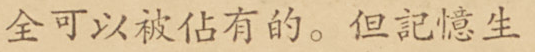全可以被佔有的。但記憶生
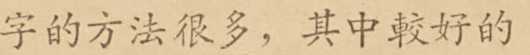字的方法很多，期中較好的
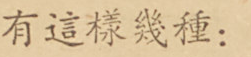有這樣幾種：
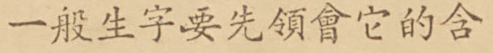一般生字要先領會它的含
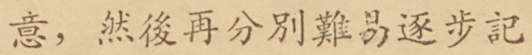意，然後再分別難易逐步記
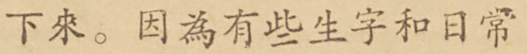下來。因為有些生字和日常
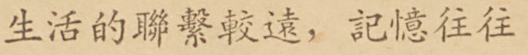生活得聯繫較遠，記憶往往
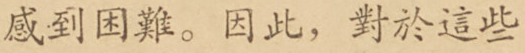感到困難。因此，對於這些
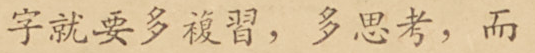字就要多複習，多思考，而
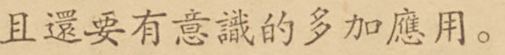且還要有意識的多加應用。
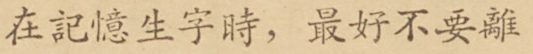在記憶生字時，最好不要離
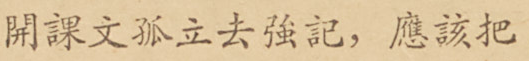開課文孤立去強記，應該把
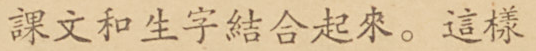課文和生字結合起來。這樣
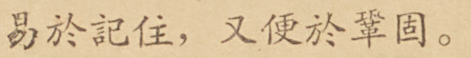易於記住，又便於鞏固。
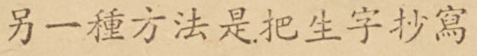另一種方法是把生字抄寫
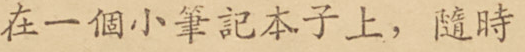在一個小筆記本子上，隨時
